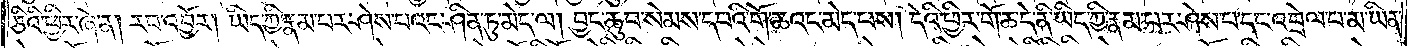ཅིའི་ཕྱིར་ཞེ་ན། རབ་འབྱོར། ཡིད་ཀྱི་རྣམ་པར་ཤེས་པའང་ཤིན་ཏུ་མེད་ལ། བྱང་ཆུབ་སེམས་དཔའི་གོ་ཆའང་མེད་པས། དེའི་ཕྱིར་གོ་ཆ་དེ་ནི་ཡིད་ཀྱི་རྣམ་པར་ཤེས་པ་དང་འབྲེལ་པ་མ་ཡིན་
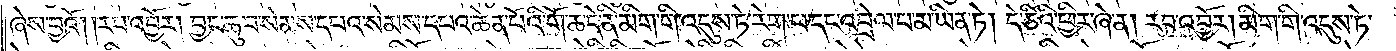ཞེས་བྱའོ། །རབ་འབྱོར། བྱང་ཆུབ་སེམས་དཔའ་སེམས་དཔའ་ཆེན་པོའི་གོ་ཆ་དེ་ནི་མིག་གི་འདུས་ཏེ་རེག་པ་དང་འབྲེལ་པ་མ་ཡིན་ཏེ། དེ་ཅིའི་ཕྱིར་ཞེ་ན། རབ་འབྱོར། མིག་གི་འདུས་ཏེ་
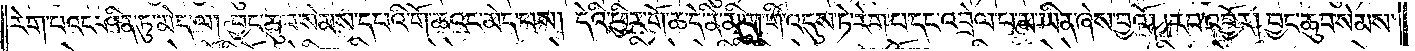རེག་པའང་ཤིན་ཏུ་མེད་ལ། བྱང་ཆུབ་སེམས་དཔའི་གོ་ཆའང་མེད་པས། དེའི་ཕྱིར་གོ་ཆ་དེ་ནི་མིག་གི་འདུས་ཏེ་རེག་པ་དང་འབྲེལ་པ་མ་ཡིན་ཞེས་བྱའོ། །རབ་འབྱོར། བྱང་ཆུབ་སེམས་
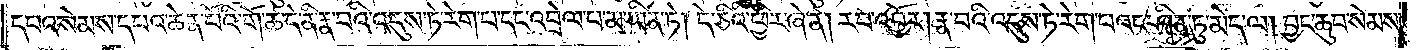དཔའ་སེམས་དཔའ་ཆེན་པོའི་གོ་ཆ་དེ་ནི་རྣ་བའི་འདུས་ཏེ་རེག་པ་དང་འབྲེལ་པ་མ་ཡིན་ཏེ། དེ་ཅིའི་ཕྱིར་ཞེ་ན། རབ་འབྱོར། རྣ་བའི་འདུས་ཏེ་རེག་པའང་ཤིན་ཏུ་མེད་ལ། བྱང་ཆུབ་སེམས་
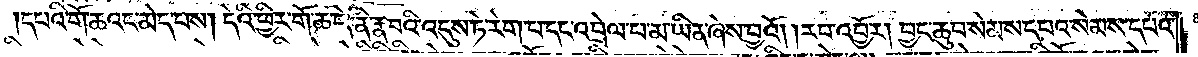དཔའི་གོ་ཆའང་མེད་པས། དེའི་ཕྱིར་གོ་ཆ་དེ་ནི་རྣ་བའི་འདུས་ཏེ་རེག་པ་དང་འབྲེལ་པ་མ་ཡིན་ཞེས་བྱའོ། །རབ་འབྱོར། བྱང་ཆུབ་སེམས་དཔའ་སེམས་དཔའ་
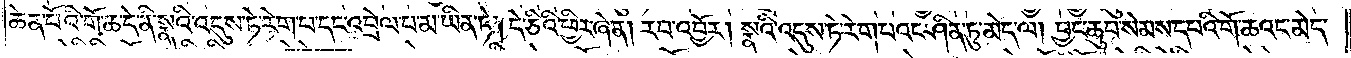ཆེན་པོའི་གོ་ཆ་དེ་ནི་སྣའི་འདུས་ཏེ་རེག་པ་དང་འབྲེལ་པ་མ་ཡིན་ཏེ། དེ་ཅིའི་ཕྱིར་ཞེ་ན། རབ་འབྱོར། སྣའི་འདུས་ཏེ་རེག་པའང་ཤིན་ཏུ་མེད་ལ། བྱང་ཆུབ་སེམས་དཔའི་གོ་ཆའང་མེད་
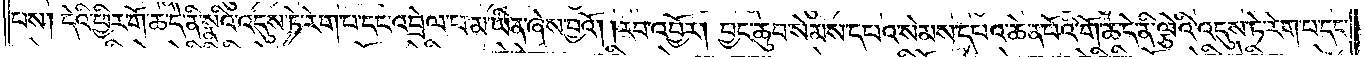པས། དེའི་ཕྱིར་གོ་ཆ་དེ་ནི་སྣའི་འདུས་ཏེ་རེག་པ་དང་འབྲེལ་པ་མ་ཡིན་ཞེས་བྱའོ། །རབ་འབྱོར། བྱང་ཆུབ་སེམས་དཔའ་སེམས་དཔའ་ཆེན་པོའི་གོ་ཆ་དེ་ནི་ལྕེའི་འདུས་ཏེ་རེག་པ་དང་
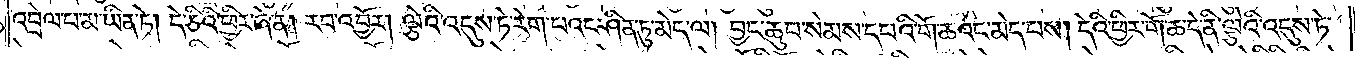འབྲེལ་པ་མ་ཡིན་ཏེ། དེ་ཅིའི་ཕྱིར་ཞེ་ན། རབ་འབྱོར། ལྕེའི་འདུས་ཏེ་རེག་པའང་ཤིན་ཏུ་མེད་ལ། བྱང་ཆུབ་སེམས་དཔའི་གོ་ཆའང་མེད་པས། དེའི་ཕྱིར་གོ་ཆ་དེ་ནི་ལྕེའི་འདུས་ཏེ་
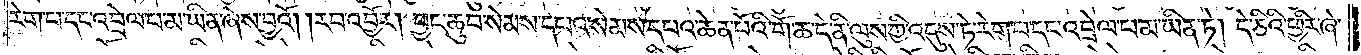རེག་པ་དང་འབྲེལ་པ་མ་ཡིན་ཞེས་བྱའོ། །རབ་འབྱོར། བྱང་ཆུབ་སེམས་དཔའ་སེམས་དཔའ་ཆེན་པོའི་གོ་ཆ་དེ་ནི་ལུས་ཀྱི་འདུས་ཏེ་རེག་པ་དང་འབྲེལ་པ་མ་ཡིན་ཏེ། དེ་ཅིའི་ཕྱིར་ཞེ་
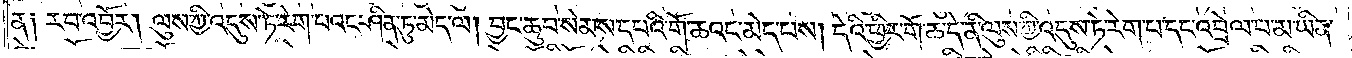ན། རབ་འབྱོར། ལུས་ཀྱི་འདུས་ཏེ་རེག་པའང་ཤིན་ཏུ་མེད་ལ། བྱང་ཆུབ་སེམས་དཔའ་གོ་ཆའང་མེད་པས། དེའི་ཕྱིར་གོ་ཆ་དེ་ནི་ལུས་ཀྱི་འདུས་ཏེ་རེག་པ་དང་འབྲེལ་པ་མ་ཡིན་
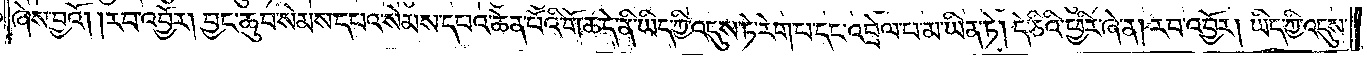ཞེས་བྱའོ། །རབ་འབྱོར། བྱང་ཆུབ་སེམས་དཔའ་སེམས་དཔའ་ཆེན་པོའི་གོ་ཆ་དེ་ནི་ཡིད་ཀྱི་འདུས་ཏེ་རེག་པ་དང་འབྲེལ་པ་མ་ཡིན་ཏེ། དེ་ཅིའི་ཕྱིར་ཞེ་ན། རབ་འབྱོར། ཡིད་ཀྱི་འདུས་
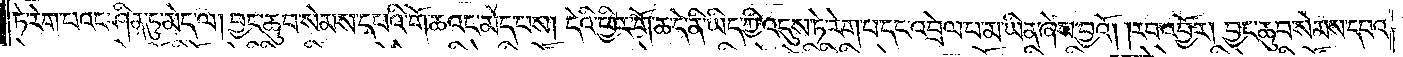ཏེ་རེག་པའང་ཤིན་ཏུ་མེད་ལ། བྱང་ཆུབ་སེམས་དཔའི་གོ་ཆའང་མེད་པས། དེའི་ཕྱིར་གོ་ཆ་དེ་ནི་ཡིད་ཀྱི་འདུས་ཏེ་རེག་པ་དང་འབྲེལ་པ་མ་ཡིན་ཞེས་བྱའོ། །རབ་འབྱོར། བྱང་ཆུབ་སེམས་དཔའ་
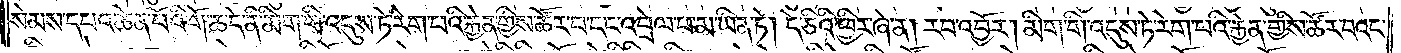སེམས་དཔའ་ཆེན་པོའི་གོ་ཆ་དེ་ནི་མིག་གི་འདུས་ཏེ་རེག་པའི་རྐྱེན་གྱིས་ཚོར་བ་དང་འབྲེལ་པ་མ་ཡིན་ཏེ། དེ་ཅིའི་ཕྱིར་ཞེ་ན། རབ་འབྱོར། མིག་གི་འདུས་ཏེ་རེག་པའི་རྐྱེན་གྱིས་ཚོར་བའང་
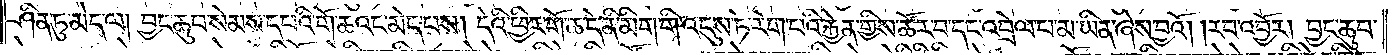ཤིན་ཏུ་མེད་ལ། བྱང་ཆུབ་སེམས་དཔའི་གོ་ཆའང་མེད་པས། དེའི་ཕྱིར་གོ་ཆ་དེ་ནི་མིག་གི་འདུས་ཏེ་རེག་པའི་རྐྱེན་གྱིས་ཚོར་བ་དང་འབྲེལ་པ་མ་ཡིན་ཞེས་བྱའོ། །རབ་འབྱོར། བྱང་ཆུབ་
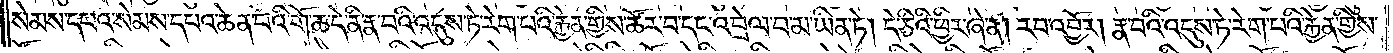སེམས་དཔའ་སེམས་དཔའ་ཆེན་པོའི་གོ་ཆ་དེ་ནི་རྣ་བའི་འདུས་ཏེ་རེག་པའི་རྐྱེན་གྱིས་ཚོར་བ་དང་འབྲེལ་པ་མ་ཡིན་ཏེ། དེ་ཅིའི་ཕྱིར་ཞེ་ན། རབ་འབྱོར། རྣ་བའི་འདུས་ཏེ་རེག་པའི་རྐྱེན་གྱིས་
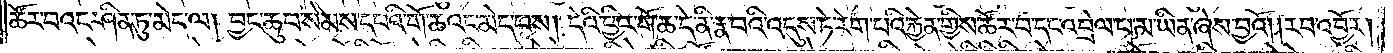ཚོར་བའང་ཤིན་ཏུ་མེད་ལ། བྱང་ཆུབ་སེམས་དཔའི་གོ་ཆའང་མེད་པས། དེའི་ཕྱིར་གོ་ཆ་དེ་ནི་རྣ་བའི་འདུས་ཏེ་རེག་པའི་རྐྱེན་གྱིས་ཚོར་བ་དང་འབྲེལ་པ་མ་ཡིན་ཞེས་བྱའོ། །རབ་འབྱོར།
